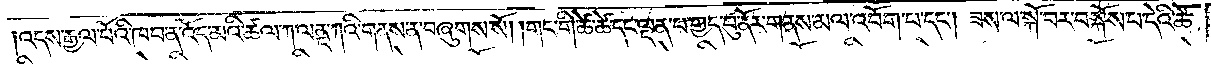འདས་རྒྱལ་པོའི་ཁབ་ན་འོད་མའི་ཚལ་ཀ་ལནྡ་ཀའི་གནས་ན་བཞུགས་སོ། །གང་གི་ཚེ་ཚེ་དང་ལྡན་པ་གྱད་བུ་ནོར་གནས་མལ་འབོག་པ་དང༌། ཟས་ལ་སྐོ་བར་བསྐོས་པ་དེའི་ཚེ་
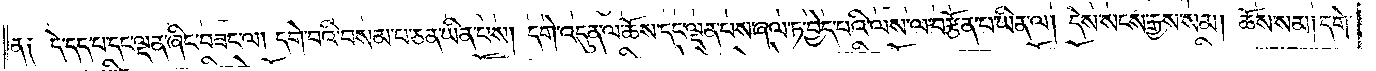ན། དེ་དད་པ་དང་ལྡན་ཞིང་བཟང་ལ། དགེ་བའི་བསམ་པ་ཅན་ཡིན་པས། དགེ་འདུན་ལ་ཆོས་དང་ལྡན་པས་ཞལ་ཏ་བྱེད་པའི་ལས་ལ་བརྩོན་པ་ཡིན་ལ། དེས་སངས་རྒྱས་སམ། ཆོས་སམ། དགེ་
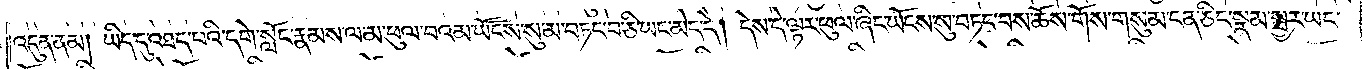འདུན་ནམ། ཡིད་དུ་འཐད་པའི་དགེ་སློང་རྣམས་ལ་མ་ཕུལ་བའམ་ཡོངས་སུ་མ་བཏང་བ་ཅི་ཡང་མེད་དེ། དེས་དེ་ལྟར་ཕུལ་ཞིང་ཡོངས་སུ་བཏང་བས་ཆོས་གོས་གསུམ་ངན་ཅིང་སྣམ་སྦྱར་ཡང་
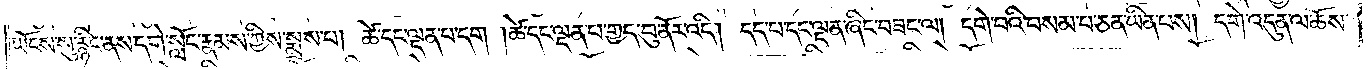ཡོངས་སུ་རྙིང་ནས་དགེ་སློང་རྣམས་ཀྱིས་སྨྲས་པ། ཚེ་དང་ལྡན་པ་དག །ཚེ་དང་ལྡན་པ་གྱད་བུ་ནོར་འདི། དད་པ་དང་ལྡན་ཞིང་བཟང་ལ། དགེ་བའི་བསམ་པ་ཅན་ཡིན་པས། དགེ་འདུན་ལ་ཆོས་
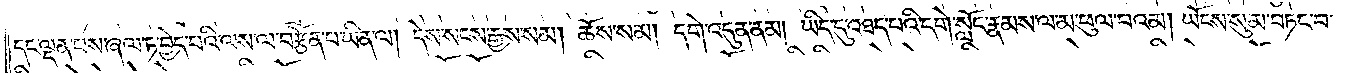དང་ལྡན་པས་ཞལ་ཏ་བྱེད་པའི་ལས་ལ་བརྩོན་པ་ཡིན་ལ། དེས་སངས་རྒྱས་སམ། ཆོས་སམ། དགེ་འདུན་ནམ། ཡིད་དུ་འཐད་པའི་དགེ་སློང་རྣམས་ལ་མ་ཕུལ་བའམ། ཡོངས་སུ་མ་བཏང་བ་
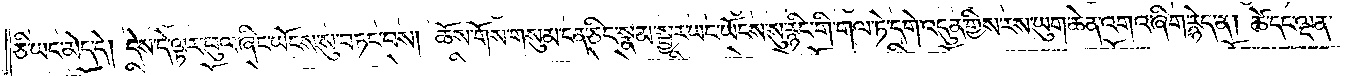ཅི་ཡང་མེད་དེ། དེས་དེ་ལྟར་ཕུལ་ཞིང་ཡོངས་སུ་བཏང་བས། ཆོས་གོས་གསུམ་ངན་ཅིང་སྣམ་སྦྱར་ཡང་ཡོངས་སུ་རྙིང་གི་གལ་ཏེ་དགེ་འདུན་གྱིས་རས་ཡུག་ཆེན་འགའ་ཞིག་རྙེད་ན། ཚེ་དང་ལྡན་
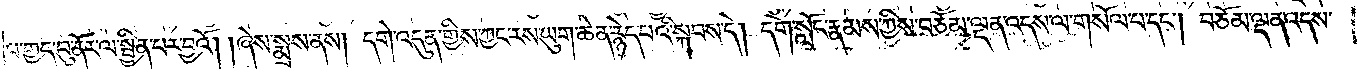པ་གྱད་བུ་ནོར་ལ་སྦྱིན་པར་བྱའོ། །ཞེས་སྨྲས་ནས། དགེ་འདུན་གྱིས་ཀྱང་རས་ཡུག་ཆེན་རྙེད་པའི་སྐབས་དེ། དགེ་སློང་རྣམས་ཀྱིས་བཅོམ་ལྡན་འདས་ལ་གསོལ་པ་དང༌། བཅོམ་ལྡན་འདས་
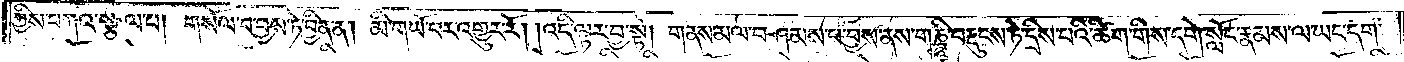ཀྱིས་བཀའ་སྩལ་པ། གསོལ་པ་བྱས་ཏེ་བྱིན་ན། མི་གཡོ་བར་འགྱུར་རོ། །འདི་ལྟར་བྱ་སྟེ། གནས་མལ་བཤམས་པ་བྱས་ནས་གཎྜཱི་བརྡུངས་ཏེ་དྲིས་པའི་ཚིག་གིས་དགེ་སློང་རྣམས་ལ་ཡང་དག་
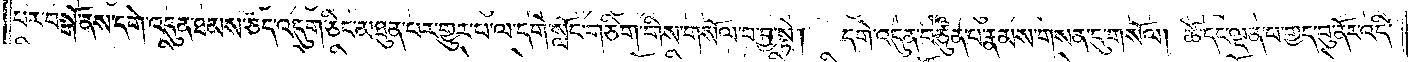པར་བསྒོ་ནས་དགེ་འདུན་ཐམས་ཅད་འདུག་ཅིང་མཐུན་པར་གྱུར་པ་ལ་དགེ་སློང་གཅིག་གིས་གསོལ་བ་བྱ་སྟེ། དགེ་འདུན་བཙུན་པ་རྣམས་གསན་དུ་གསོལ། ཚེ་དང་ལྡན་པ་གྱད་བུ་ནོར་འདི་
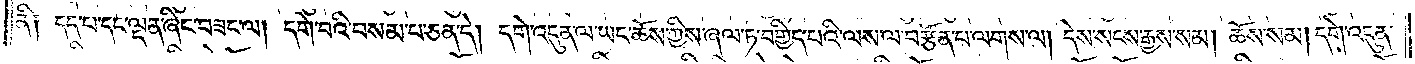ནི། དད་པ་དང་ལྡན་ཞིང་བཟང་ལ། དགེ་བའི་བསམ་པ་ཅན་དེ། དགེ་འདུན་ལ་ཡང་ཆོས་ཀྱིས་ཞལ་ཏ་བགྱིད་པའི་ལས་ལ་བརྩོན་པ་ལགས་ལ། དེས་སངས་རྒྱས་སམ། ཆོས་སམ། དགེ་འདུན་
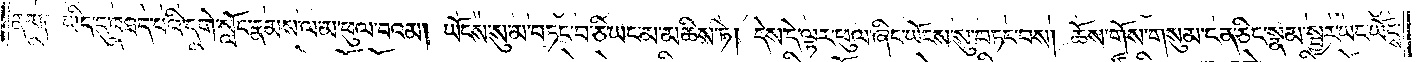ནམ། ཡིད་དུ་འཐད་པའི་དགེ་སློང་རྣམས་ལམ་ཕུལ་བའམ། ཡོངས་སུ་མ་བཏང་བ་ཅི་ཡང་མ་མཆིས་ཏེ། དེས་དེ་ལྟར་ཕུལ་ཞིང་ཡོངས་སུ་བཏང་བས། ཆོས་གོས་གསུམ་ངན་ཅིང་སྣམ་སྦྱར་ཡང་ཡོངས་
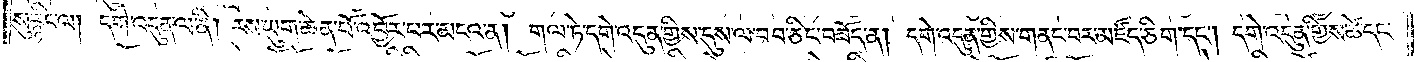སུ་རྙིང་ལ། དགེ་འདུན་ལ་ནི། རས་ཡུག་ཆེན་པོ་འབྱོར་པར་མངའ་ན། གལ་ཏེ་དགེ་འདུན་གྱིས་དུས་ལ་བབ་ཅིང་བཟོད་ན། དགེ་འདུན་གྱིས་གནང་བར་མཛོད་ཅིག་དང༌། དགེ་འདུན་གྱིས་ཚེ་དང་
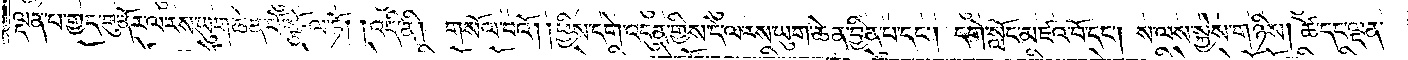ལྡན་པ་གྱད་བུ་ནོར་ལ་རས་ཡུག་ཆེན་པོ་སྩོལ་ཏོ། །འདི་ནི། གསོལ་བའོ། །ཕྱིས་དགེ་འདུན་གྱིས་དེ་ལ་རས་ཡུག་ཆེན་བྱིན་པ་དང༌། དགེ་སློང་མཛའ་བོ་དང༌། ས་ལས་སྐྱེས་གཉིས། ཚེ་དང་ལྡན་
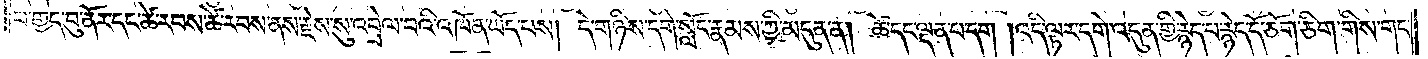པ་གྱད་བུ་ནོར་དང་ཚེ་རབས་ཚེ་རབས་ནས་རྗེས་སུ་འབྲེལ་བའི་འཁོན་ཡོད་པས། དེ་གཉིས་དགེ་སློང་རྣམས་ཀྱི་མདུན་ན། ཚེ་དང་ལྡན་པ་དག །འདི་ལྟར་དགེ་འདུན་གྱི་རྙེད་པ་རྙེད་དོ་ཅོག་ཅིག་གིས་གང་
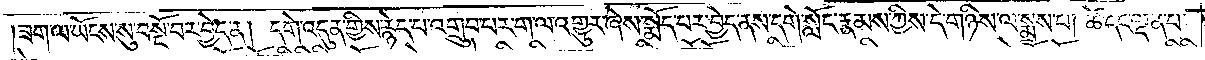ཟག་ལ་ཡོངས་སུ་བསྔོ་བར་བྱེད་ན། དགེ་འདུན་གྱིས་རྙེད་པ་འགྲུབ་པར་ག་ལ་འགྱུར་ཞེས་སྨོད་པར་བྱེད་ནས་དགེ་སློང་རྣམས་ཀྱིས་དེ་གཉིས་ལ་སྨྲས་པ། ཚེ་དང་ལྡན་པ་
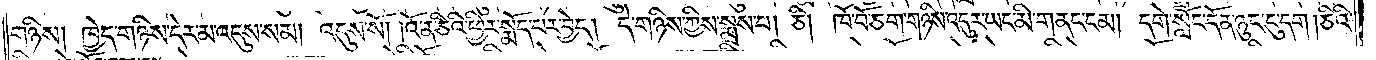གཉིས། ཁྱེད་གཉིས་དེར་མ་འདུས་སམ། འདུས་སོ། །འོ་ན་ཅིའི་ཕྱིར་སྨོད་པར་བྱེད། དེ་གཉིས་ཀྱིས་སྨྲས་པ། ཅི། ཁོ་བོ་ཅག་གཉིས་འདུར་ཡང་མི་གནང་ངམ། དགེ་སློང་དོན་ཉུང་ངུ་དག །ཅིའི་
